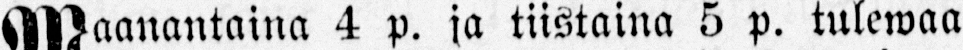Maanantaina 4 p. ja tiistaina 5 p. tulewaa
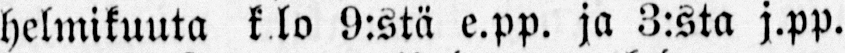helmikuuta k.lo 9:stä e.pp. ja 3:sta j.pp.
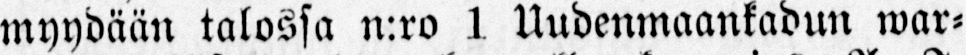myydään talossa n:ro 1 Uudenmaankadun war-
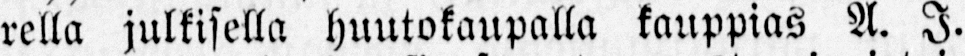rella julkisella huutokaupalla kauppias A. I.
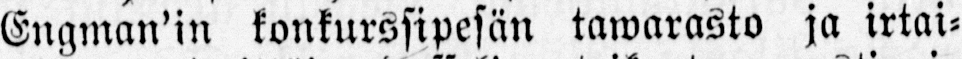Engman’in konkurssipesän tawarasto ja irtai-
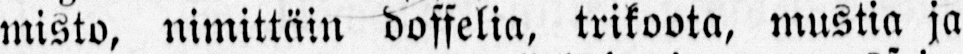misto, nimittäin doffelia, trikoota, mustia ja
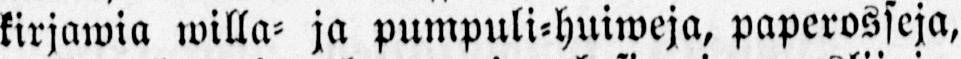kirjawia willa- ja pumpuli-huiweja, paperosseja,
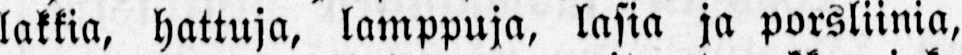lakkia, hattuja, lamppuja, lasia ja porsliinia,
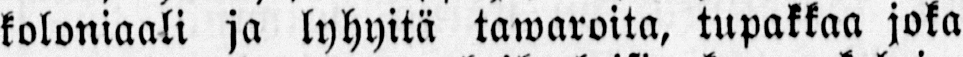koloniaali ja lyhyitä tawaroita, tupakkaa joka
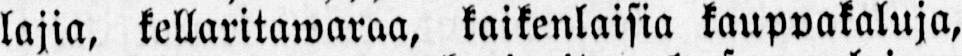lajia, kellaritawaraa, kaikenlaisia kauppakaluja,
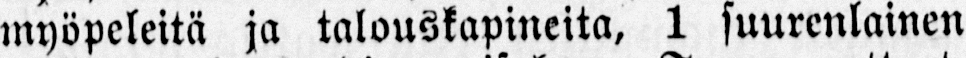myöpeleitä ja talouskapineita, 1 suurenlainen
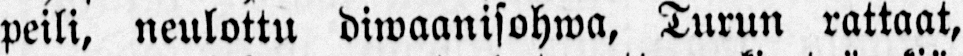peili, neulottu diwaanisohwa, Turun rattaat,
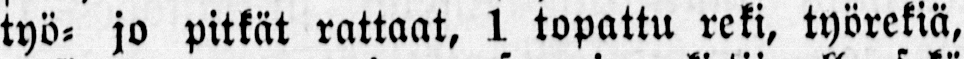työ- jo pitkät rattaat, 1 topattu reki, työrekiä,
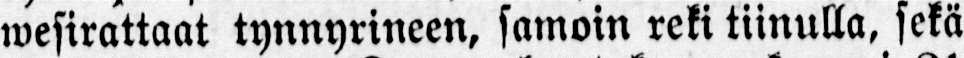wesirattaat tynnyrineen, samoin reki tiinulla, sekä
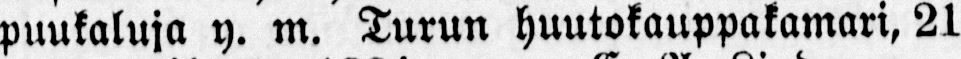puukaluja y. m. Turun huutokauppakamari, 21
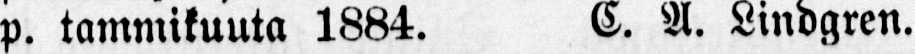p. tammikuuta 1884. C. A. Lindgren.
